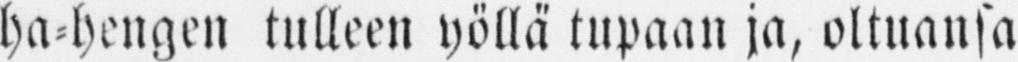ha-hengen tulleen yöllä tupaan ja, oltuansa
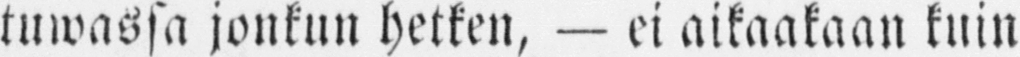tuwassa jonkun hetken, — ei aikaakaan kuin
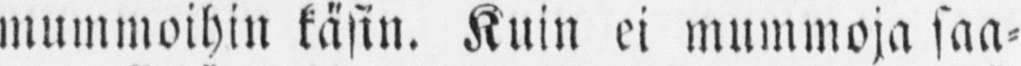mummoihin käsin. Kuin ei mummoja saa-
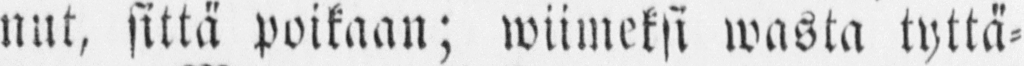nut, sittä poikaan; wiimeksi wasta tyttä-
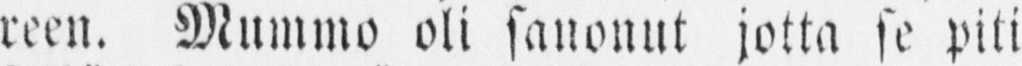reen. Mummo oli sanonut jotta se piti
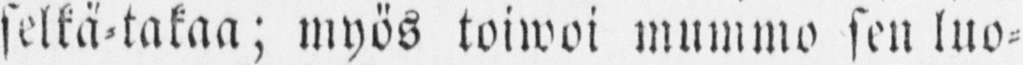selkä-takaa; myös toiwoi mummo sen luo-
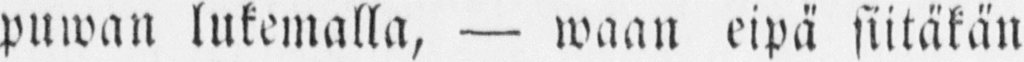puwan lukemalla, — waan eipä siitäkän
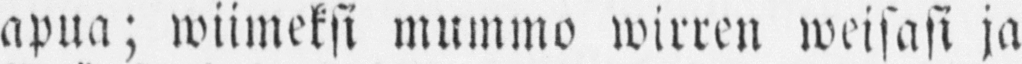apua; wiimeksi mummo wirren weisasi ja
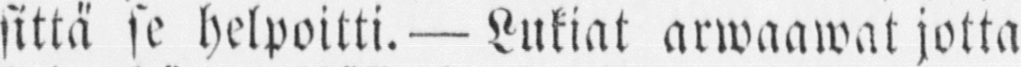sittä se helpoitti.— Lukiat arwaawat jotta
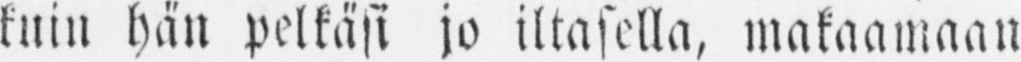kuin hän pelkäsi jo iltasella, makaamaan
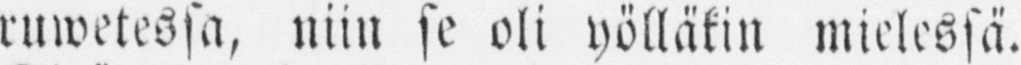ruwetessa, niin se oli yölläkin mielessä.
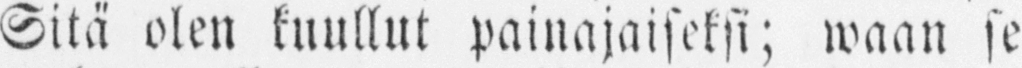Sitä olen kuullut painajaiseksi; waan se
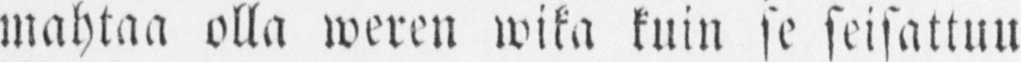mahtaa olla weren wika kuin se seisattuu
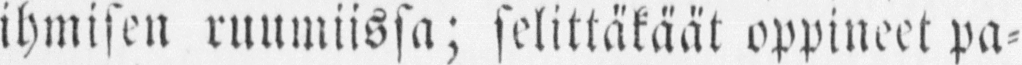ihmisen ruumiissa; selittäkäät oppineet pa-
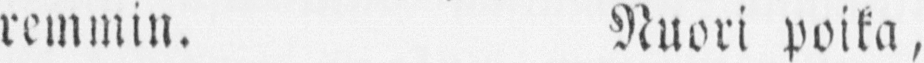remmin. Nuori poika,
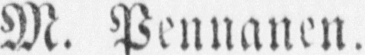M. Pennanen.
